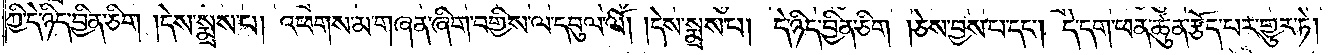ཀྱི་དེ་ཉིད་བྱིན་ཅིག །དེས་སྨྲས་པ། འཕགས་མ་གཞན་ཞིག་བགྱིས་ལ་དབུལ་ལོ། །དེས་སྨྲས་པ། དེ་ཉིད་བྱིན་ཅིག །ཅེས་བྱས་པ་དང༌། དེ་དག་ཕན་ཚུན་རྩོད་པར་གྱུར་ཏེ།
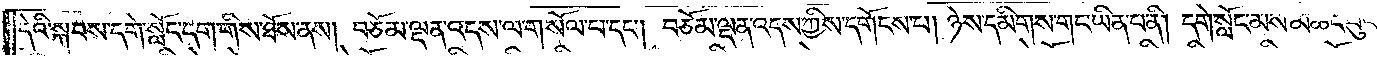དེའི་སྐབས་དགེ་སློང་དག་གིས་ཐོས་ནས། བཅོམ་ལྡན་འདས་ལ་གསོལ་པ་དང༌། བཅོམ་ལྡན་འདས་ཀྱིས་དགོངས་པ། ཉེས་དམིགས་གང་ཡིན་པ་ནི། དགེ་སློང་མས་མཆིང་བུའི་
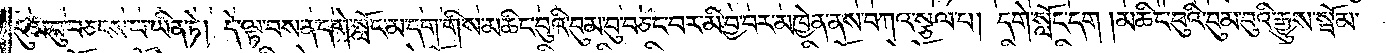བུམ་བུ་བཅངས་པ་ཡིན་ཏེ། དེ་ལྟ་བས་ན་དགེ་སློང་མ་དག་གིས་མཆིང་བུའི་བུམ་བུ་བཅང་བར་མི་བྱ་བར་མཁྱེན་ནས་བཀའ་སྩལ་པ། དགེ་སློང་དག། མཆིང་བུའི་བུམ་བུའི་རྒྱུས་སྦོམ་
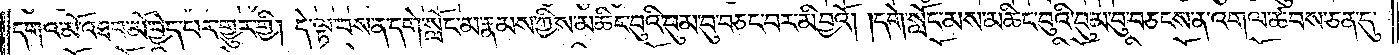དགའ་མོ་འཐབ་མོ་བྱེད་པར་གྱུར་གྱི། དེ་ལྟ་བས་ན་དགེ་སློང་མ་རྣམས་ཀྱིས་མཆིང་བུའི་བུམ་བུ་བཅང་བར་མི་བྱའོ། །དགེ་སློང་མས་མཆིང་བུའི་བུམ་བུ་བཅངས་ན་འགལ་ཚབས་ཅན་དུ་
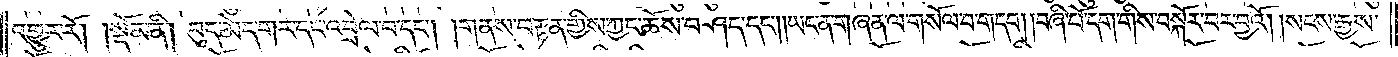འགྱུར་རོ།    །སྡོམ་ནི། བུད་མེད་གར་དང་འབྲེལ་བ་དང༌། །གནས་བརྟན་གྱིས་ཀྱང་ཆོས་བཤད་དང༌། ཡང་ན་གཞན་ལ་གསོལ་བ་གདབ། །བཞི་པོ་དག་གིས་བསྐོར་བར་བྱའོ། །སངས་རྒྱས་
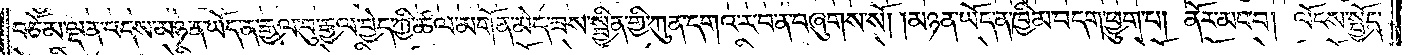བཅོམ་ལྡན་འདས་མཉན་ཡོད་ན་རྒྱལ་བུ་རྒྱལ་བྱེད་ཀྱི་ཚལ་མགོན་མེད་ཟས་སྦྱིན་གྱི་ཀུན་དགའ་ར་བ་ན་བཞུགས་སོ། །མཉན་ཡོད་ན་ཁྱིམ་བདག་ཕྱུག་པ། ནོར་མང་བ། ལོངས་སྤྱོད་
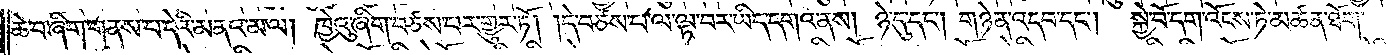ཆེ་བ་ཞིག་གནས་པ་དེའི་མནའ་མ་ལ། ཁྱེའུ་ཞིག་བཙས་པར་གྱུར་ཏོ། །དེ་བཙས་པ་ལ་ལྟ་བར་ཡིད་དགའ་ནས། ཉེ་དུ་དང༌། གཉེན་འདབ་དང༌། སྐྱེ་བོ་དག་འོངས་ཏེ་མཚན་ཐོག་
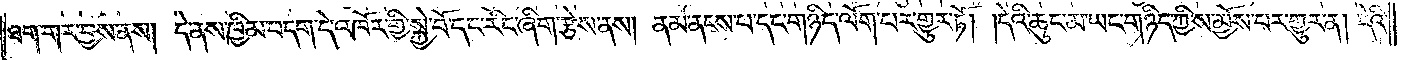ཐག་གར་བྱས་ནས། དེ་ནས་ཁྱིམ་བདག་དེ་འཁོར་གྱི་སྐྱེ་བོ་དང་རིང་ཞིག་རྩེས་ནས། ནམ་ནངས་པ་དང་གཉིད་ལོག་པར་གྱུར་ཏོ། །དེའི་ཆུང་མ་ཡང་གཉིད་ཀྱིས་མྱོས་པར་གྱུར་ན། དེའི་
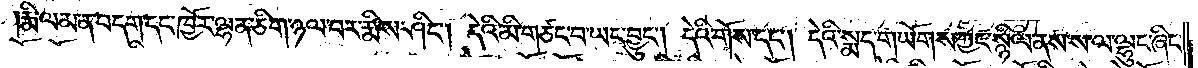རྨི་ལམ་ན་བདག་དང་ཁྱོར་ལྷན་ཅིག་ཉལ་བར་རྨིས་ཤིང༌། དེའི་མི་གཙང་བ་ཡང་བྱུང༌། དེའི་གོས་དང༌། དེའི་སྨད་གཡོགས་ཀྱང་སྙིལ་ནས་ས་ལ་ལྷུང་ཞིང་
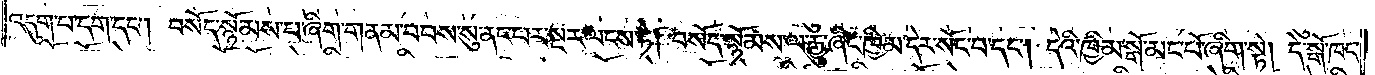འདུག་པ་དག་དང༌། བསོད་སྙོམས་པ་ཞིག་གནམ་བབས་སུ་ནང་པར་སྔར་ལངས་ཏེ། བསོད་སྙོམས་ལ་རྒྱུ་ཞིང་ཁྱིམ་དེར་སོང་བ་དང༌། དེའི་ཁྱིམ་སྒོ་མང་པོ་ཞིག་སྟེ། དེ་སྒོ་ཁང་
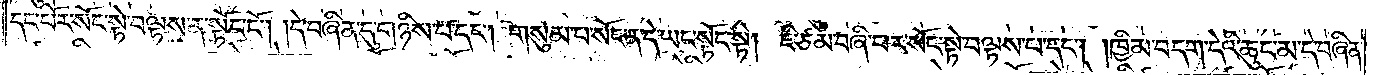དང་པོར་སོང་སྟེ་བལྟས་ན་སྟོང་ངོ༌། །དེ་བཞིན་དུ་གཉིས་པ་དང༌། གསུམ་པ་སོང་ན་དེ་ཡང་སྟོང་སྟེ། ཇི་ཙམ་བཞི་པར་སོང་སྟེ་བལྟས་པ་དང༌། ཁྱིམ་བདག་དེའི་ཆུང་མ་དེ་བཞིན་
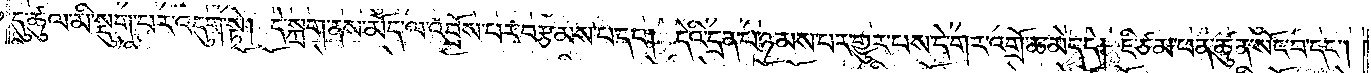དུ་ཚུལ་མི་སྡུག་པར་འདུག་སྟེ། དེ་སྐྲག་ནས་མོད་ལ་འབྲོས་པར་བརྩམས་པ་དང༌། དེའི་དྲན་པ་ཉམས་པར་གྱུར་པས་དེ་གར་འགྲོ་ཆ་མེད་དེ། ཇི་ཙམ་ཕན་ཚུན་སོང་བ་དང༌། །
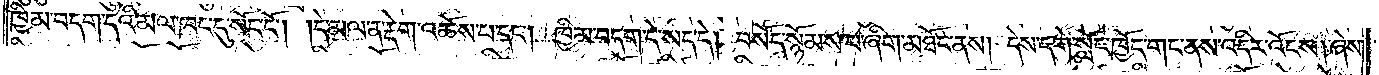ཁྱིམ་བདག་དེའི་མལ་ཁང་དུ་སོང་ངོ༌། །དེ་མལ་ན་རྡེག་འཆོས་པ་དང༌། ཁྱིམ་བདག་དེ་སད་དེ། བསོད་སྙོམས་པ་ཞིག་མཐོང་ནས། དེས་དགེ་སློང་ཁྱོད་གང་ནས་འདིར་འོངས། ཞེས་
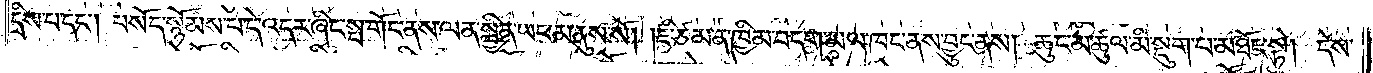དྲིས་པ་དང༌། བསོད་སྙོམས་པ་དེ་འདར་ཞིང་སྤ་གོང་ནས་ལན་སྦྱིན་ཡང་མ་ནུས་སོ། །ཇི་ཙམ་ན་ཁྱིམ་བདག་མལ་ཁང་ནས་བྱུང་ནས། ཆུང་མ་ཚུལ་མི་སྡུག་པ་མཐོང་སྟེ། དེས་
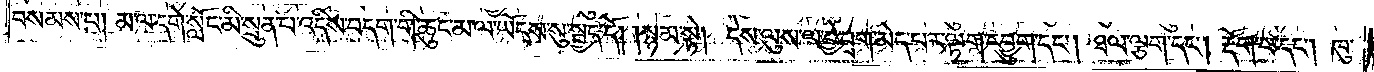བསམས་པ། མ་ལ་དགེ་སློང་མི་སྲུན་པ་འདིས་བདག་གི་ཆུང་མ་ལ་ཡོངས་སུ་སྤྱད་དོ། །སྙམ་སྟེ། དེས་ལུས་ལ་བྱེ་བྲག་མེད་པར་ལྟག་དབྱུག་དང༌། ཐལ་ལྕག་དང༌། རྡོག་པ་དང༌། ཁུ་
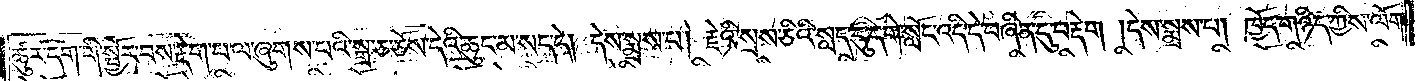ཚུར་དག་གི་སྦྱོར་བས་རྡེག་པ་ལ་ཞུགས་པའི་སྒྲ་ཅ་ཅོས་དེའི་ཆུང་མ་སད་དེ། དེས་སྨྲས་པ། རྗེའི་སྲས་ཅིའི་སླད་དུ་དགེ་སློང་འདི་དེ་བཞིན་དུ་བརྡེག །དེས་སྨྲས་པ། ཁྱོད་གཉིད་ཀྱིས་ལོག་
